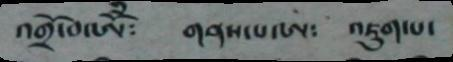འགྲོ་བ་ཨོཾ༴ གནས་པ་ཨ༴ འཇུག་པ་
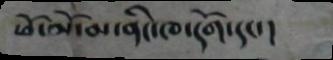ཕོ་མོ་མ་ནིང་ཁ་དོག་དང་།
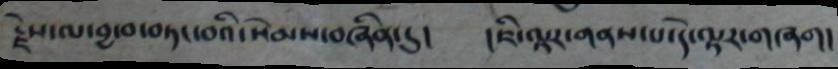རྗེས་ལ་བྱ་བ་བཏང་བའི་སེམས་བཞིན་དུ། །ཇི་ལྟར་གནས་པ་དེ་ལྟར་གཞག།
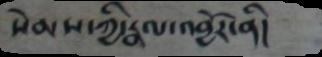སེམས་ཀྱི་རྣལ་འབྱོར་ནི།
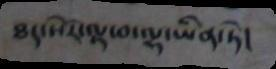ཐད་སོར་ལྟ་བ་ལྷ་ཡིན་ཏེ།
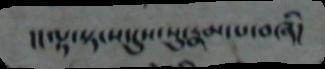།།ལྟ་སྟངས་དུས་སུ་རྣམ་པ་བཞི།
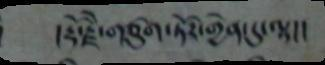།རྡོ་རྗེ་གཙུག་ཏོར་གྱེན་དུ་ལྟ།།
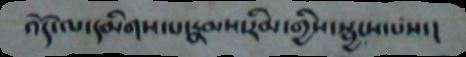འོད་ལ་དམིགས་པ་རྣམས་རིམ་གྱིས་སྦྱངས་པས་།
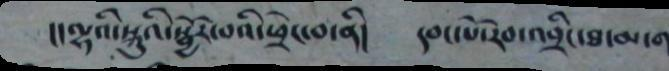།།ལྷའི་སྐུའི་སྦྱོར་བའི་ཕྲེང་བ་ནི། དབང་པོ་རབ་འབྲིང་ཐ་མ་
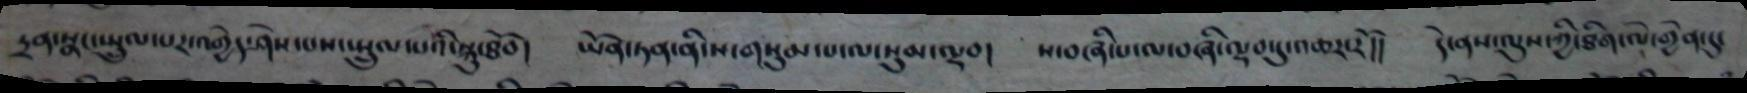དྲན་སྣང་སྤྲུལ་པར་འགྱེད་ཤེས་པས་སྤྲུལ་པའི་སྐུ་ཐོབ། ཡོན་ཏན་ནི་ས་གསུམ་པ་ལ་སུམ་ལྡབ། ས་བཞི་པ་ལ་བཞི་ལྷབ་དུ་འཆར་རོ།། དེ་ནས་ལུས་ཀྱི་ཐིག་ལེ་གྱེན་དུ་
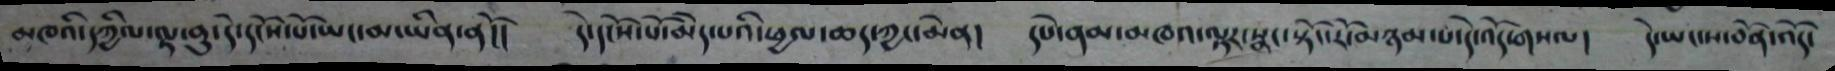མཁའི་དཀྱིལ་ལྟ་བུ་དེ་དངོས་པོ་ཡང་མ་ཡིན་ནོ།། དེ་དངོས་པོ་མེད་པའི་ཕྱལ་ཆད་ཀྱང་མེན། དཔེ་ནམ་མཁའ་ལྟར་སྣང་སྟོང་རོ་མཉམ་པ་དེ་འོད་གསལ། དེ་ཡང་ས་བོན་འོད་
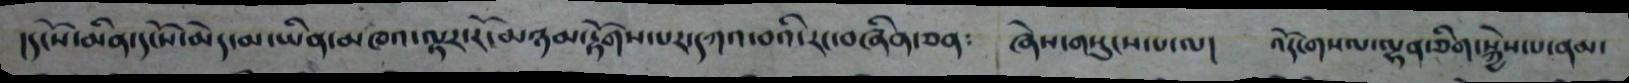།དངོས་མིན་དངོས་མེད་མ་ཡིན་མཁའ་ལྟར་རོ་མཉམ་རྟོགས་པར་དཀའ་བའི་རང་བཞིན་ཅན༴ ཞེས་གསུངས་པ་ལ། འོག་གསལ་ལྷན་ཅིག་སྐྱེས་པ་ནམ་
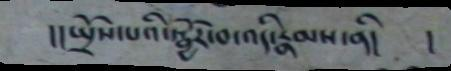།།སྤྲོས་པའི་སྦྱོར་བ་འདི་རྣམས་ནི། །
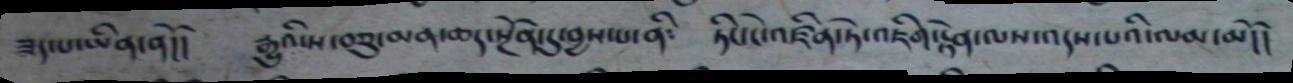ཟད་པ་ཡིན་ནོ།། རྒྱུའི་ས་བཅུ་མན་ཆད་སྔོན་དུ་བྱས་པ་ནི༴ ཏིང་ངེ་འཛིན་ཏེ་འཇིག་རྟེན་ལས་འདས་པའི་ལམ་མོ།།
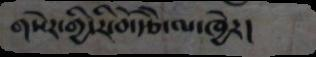གསེར་གྱི་རི་བོ་རྩེ་ལ་ཁྱེར།
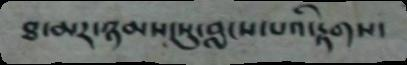ཐ་མར་ཉམས་སུ་བླངས་པའི་རྟགས་
